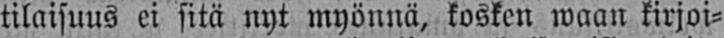tilaisuus ei sitä nyt myönnä, kosken waan kirjoi-
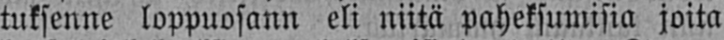tuksenne loppuosann eli niitä paheksumisia joita
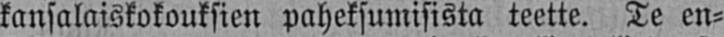kansalaiskokouksien paheksumisista teette. Te en-
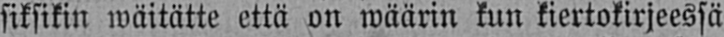siksikin wäitätte että on wäärin kun kiertokirjeessä
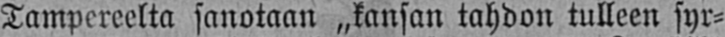Tampereelta sanotaan „kansan tahdon tulleen syr-
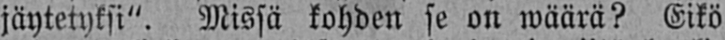jäytetyksi". Missä kohden se on wäärä? Eikö
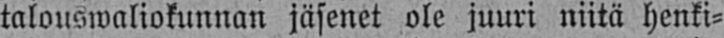talouswaliokunnan jäsenet ole juuri niitä henki-
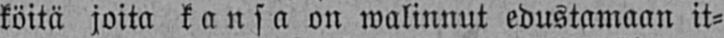köitä joita kansa on walinnut edustamaan it-
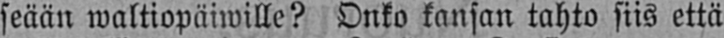seään waltiopäiwille? Onko kansan tahto siis että
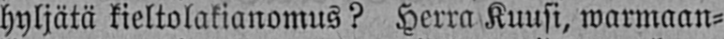hyljätä kieltolakianomus? Herra Kuusi, warmaan-
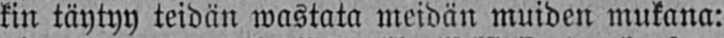kin täytyy teidän wastata meidän muiden mukana:
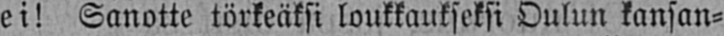ei! Sanotte törkeäksi loukkaukseksi Oulun kansan-
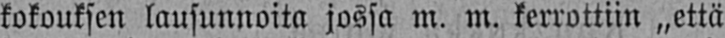kokouksen lausunnoita jossa m. m. kerrottiin „että
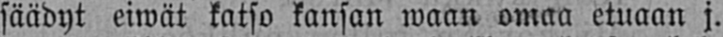säädyt eiwät katso kansan waan omaa etuaan j.
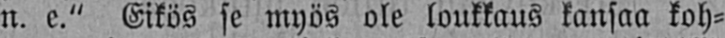n. e." Eikös se myös ole loukkaus kansaa koh-
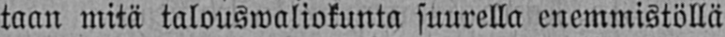taan mitä talouswaliokunta suurella enemmistöllä
